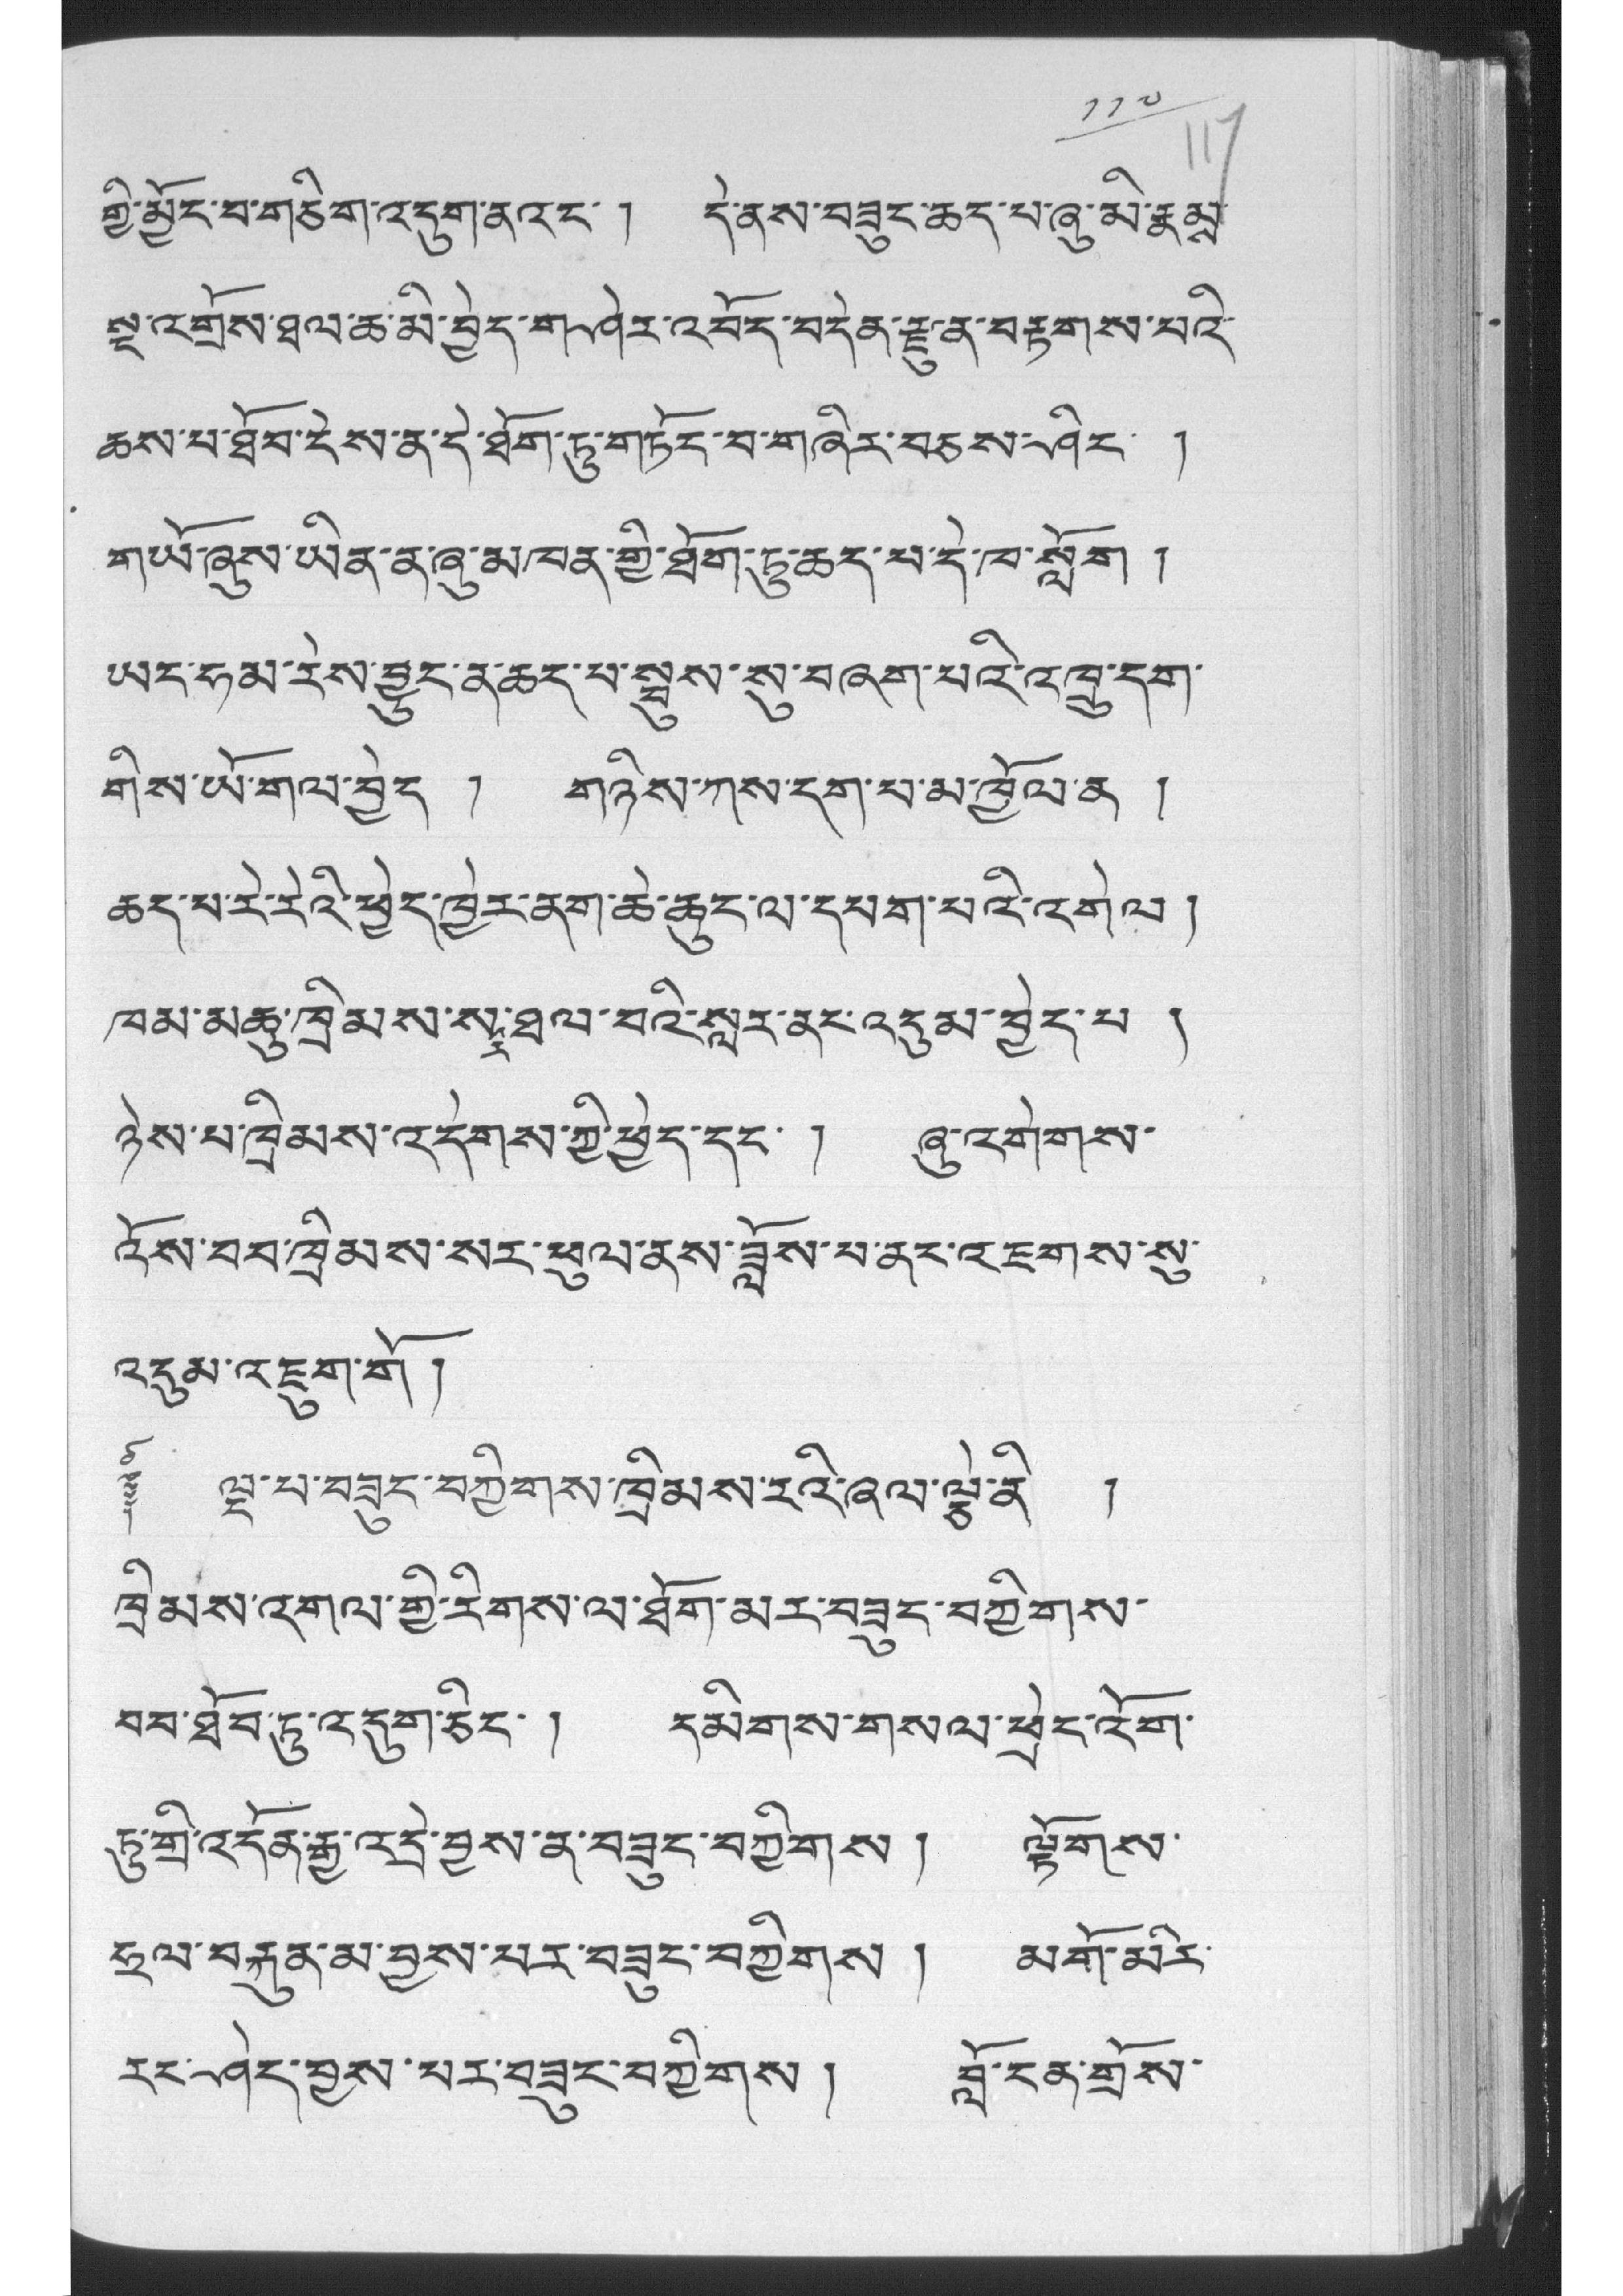༡༡༧
གྱི་མྱོང་བ་གཅིག་འདུག་ནའང་། དེ་ནས་བཟུང་ཆད་པ་ཞུ་མི་རྣམས་
སྔ་འགྲོས་ཐལ་ཆ་མི་བྱེད་ག་ཤེར་འབོད་བདེན་རྫུན་བརྟགས་པའི་
ཆས་པ་ཐོབ་ངེས་ན་དེ་ཐོག་ཏུ་གཏོང་བ་གཞིར་བཅས་ཤིང་ །
གཡོ་ཞུས་ཡིན་ན་ཞུ་མཁན་གྱི་ཐོག་ཏུ་ཆད་པ་དེ་ཁ་སློག །
ཡང་ཧམ་རེས་བྱུང་ན་ཆད་པ་སྦུས་སུ་བཞག་པའི་འཁྲུ་དག་
གིས་ཡོ་གལ་བྱེད ། གཉིས་ཀས་དག་པ་མ་ཁྱོལ་ན །
ཆད་པ་རེ་རེའི་ཕྱེད་ཁྱེར་ནག་ཆེ་ཆུང་ལ་དམག་པའི་འགེལ །
ཁམ་མཆུ་ཁྲིམས་སར་ཐལ་བའི་སླར་ནང་འདུམ་བྱེད་པ །
ཉེས་པ་ཁྲིམས་འདེགས་ཀྱི་ཕྱེད་དང་ ། ཞུ་འགེགས་
འོས་བབ་ཁྲིམས་སར་ཕུལ་ནས་ཟློས་པ་ནང་འཇགས་སུ་
འདུམ་འཇུག་གོ །
༈ ལྔ་པ་བཟང་བཀྱིགས་ཁྲིམས་རའི་ཞལ་ལྕེ་ནི །
ཁྲིམས་འགལ་གྱི་རིགས་ལ་ཐོག་མར་བཟུང་བཀྱིགས་
བབ་ཐོབ་ཏུ་འདུག་ཅིང་། དམིགས་གསལ་ཕྲེང་འོག་
ཏུ་གྲི་འདོན་རྒྱ་འདྲེ་བྱས་ན་བཟུང་བཀྱིགས། ལྟོགས་
ཧྲལ་བརྐུན་མ་བྱས་པར་བཟུང་བཀྱིགས། མགོ་མིར་
རར་ཤེད་བྱས་པར་བཟུང་བཀྱིགས། བློ་ངན་གྲོས་
